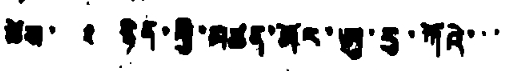ཚེས་ ༢ ཉིན་གྱི་མཚན་མོར་ཨུ་རུ་ཀོའེ་་་
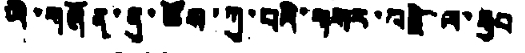ཡི་གཞོན་ནུ་ཚོས་ཀུ་པའི་གསར་བརྗེ་ལ་རྒྱབ་
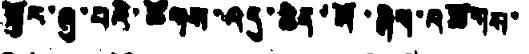སྐྱོར་ཞུ་བའི་ཚོགས་འདུ་ཆེན་མོ་ཞིག་འཚོགས་
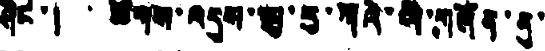ཤིང་། ཚོགས་འདུས་ཨུ་རུ་ཀོའེ་ཡི་གཞོན་ནུ་
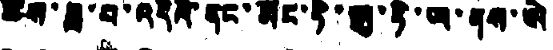ཚོས་ཟླ་བ་འདིའི་ནང་མོང་ཏེ་ཨུ་ཏི་ཡ་ནས་ཨེ་
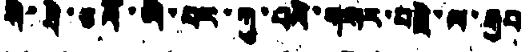སི་ཐེ་ཅའོ་ཡི་བར་ཀུ་པའི་གསར་བརྗེ་ལ་རྒྱབ་
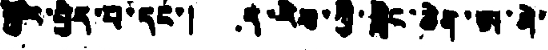སྐྱོར་བྱེད་པ་དང་། ད་རེས་ཀྱི་གླིང་ཆེན་ཨ་མེ་
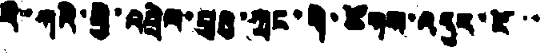རི་ཀའི་ཕྱི་འབྲེལ་པུའུ་ཀྲང་གི་ཚོགས་འདུར་ངོ་་
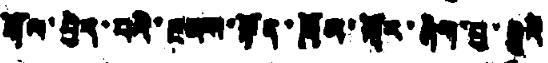རྒོལ་བྱེད་པའི་རྔམས་སྟོན་ཁྲོམ་སྐོར་ཞིག་བྱ་རྒྱུའི་
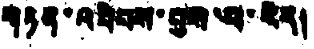གཏན་འབེབས་བྱས་པ་རེད།
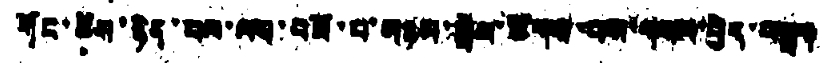གོང་ཚོས་ཉིན་བླ་ལས་བཟོ་པ་མཉམ་སྐྱེས་ཚོགས་པས་གསར་བྱེད་བསྒྲག
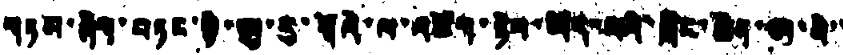བཏམ་ཞིག་བཏང་སྟེ་ཨུ་རུ་གོའེ་ལ་འཙོག་ཉེལ་ཡོད་པའི་གླིང་ཆེན་ཨ་མེ་་
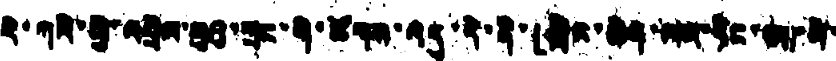རི་ཀའི་ཕྱི་འབྲེལ་པུའུ་ཀྲང་གི་ཚོགས་འདུ་དེ་ནི་「གླིང་ཆེན་ལའ་ཏིང་ཨ་མེ་
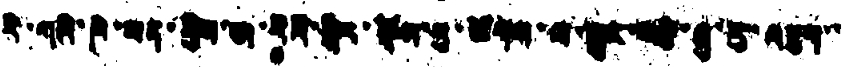རི་ཀའི་ཁེ་ཕན་གྱིས་ཨ་རིའི་སྐོར་སྡོམ་རུ་ཚོགས་ལ་སྦྱར་བརྩི་ཞུ་རུ་འཇུག་་
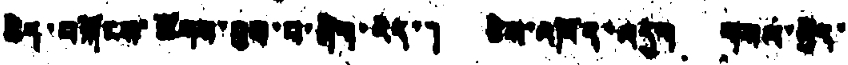ཆེད་བསྐོངས་ཚོགས་ཐུབ་པ་ཞིག་རེད་」ཅེས་འཁོད་འདུག གསལ་སྐྱེད་
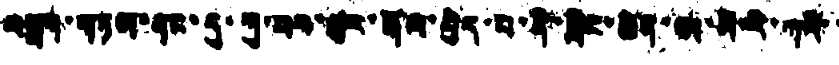བསྒྲག་གཏམ་ནང་དུ་ཀུ་པར་ཚུར་གོལ་བྱེད་པ་ནི་གླིང་ཆེན་ཨ་མེ་རི་ཀའི་
